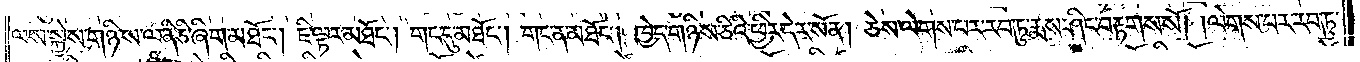ལས་སྐྱེས་གཉིས་ལ་ནི་ཅི་ཞིག་མཐོང༌། ཇི་ལྟར་མཐོང༌། གང་དུ་མཐོང༌། གང་ན་མཐོང༌། ཁྱེད་གཉིས་ཅིའི་ཕྱིར་དེར་སོན། ཅེས་ལེགས་པར་རབ་ཏུ་རྨས་ཤིང་བརྟགས་སོ། །ལེགས་པར་རབ་ཏུ་
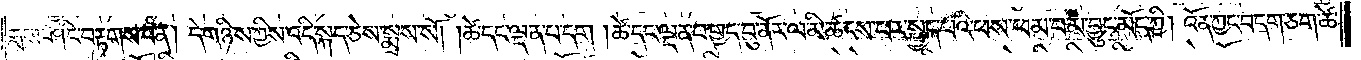རྨས་ཤིང་བརྟགས་པ་ན། དེ་གཉིས་ཀྱིས་འདི་སྐད་ཅེས་སྨྲས་སོ། །ཚེ་དང་ལྡན་པ་དག །ཚེ་དང་ལྡན་པ་གྱད་བུ་ནོར་ལ་མི་ཚངས་པར་སྤྱད་པའི་ཕས་ཕམ་པ་མ་བྱུང་མོད་ཀྱི། འོན་ཀྱང་བདག་ཅག་ཚེ་
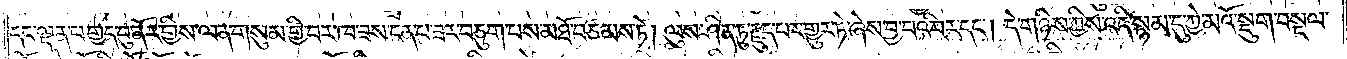དང་ལྡན་པ་གྱད་བུ་ནོར་གྱིས་ལན་གསུམ་གྱི་བར་ཁ་ཟས་ངན་པ་ཟར་བཅུག་པས་མཐོ་བཙམས་ཏེ། ལུས་ཤིན་ཏུ་རྗུད་པར་གྱུར་ཏེ་ཞེས་བྱ་བའི་བར་དང༌། དེ་གཉིས་ཀྱིས་འདི་སྙམ་དུ་ཀྱེ་མའོ་སྡུག་བསྔལ་
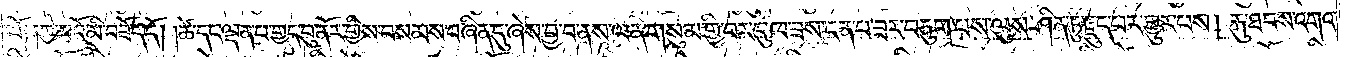ལོ༑ ༑ཀྱེ་མའོ་མི་བཟོད་དོ། །ཚེ་དང་ལྡན་པ་གྱད་བུ་ནོར་གྱིས་བསམས་བཞིན་དུ་ཞེས་བྱ་བ་ནས་ལན་གསུམ་གྱི་བར་དུ་ཁ་ཟས་ངན་པ་ཟར་བཅུག་པས་ལུས་ཤིན་ཏུ་རྗུད་པར་གྱུར་པས། རྐུ་ཐབས་འགའ་
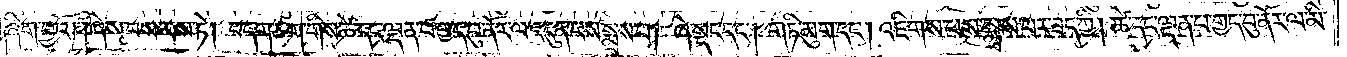ཞིག་བྱའོ། །ཞེས་བསམས་ཏེ། བདག་ཅག་གིས་ཚེ་དང་ལྡན་པ་གྱད་བུ་ནོར་ལ་འདུན་པས་སྨྲས་པ། ཞེ་སྡང་དང༌། གཏི་མུག་དང༌། འཇིགས་པས་སྨྲས་པར་ཟད་ཀྱི། ཚེ་དང་ལྡན་པ་གྱད་བུ་ནོར་ལ་མི་
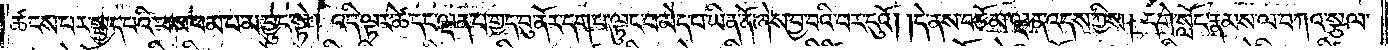ཚངས་པར་སྤྱད་པའི་ཕས་ཕམ་པ་མ་བྱུང་སྟེ། འདི་ལྟར་ཚེ་དང་ལྡན་པ་གྱད་བུ་ནོར་དག་པ་ལྟུང་བ་མེད་པ་ཡིན་ནོ་ཞེས་བྱ་བའི་བར་དུའོ། །དེ་ནས་བཅོམ་ལྡན་འདས་ཀྱིས། དགེ་སློང་རྣམས་ལ་བཀའ་སྩལ་
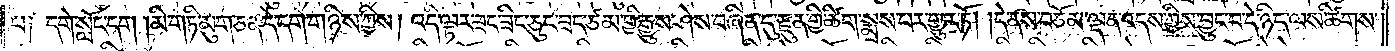པ། དགེ་སློང་དག །མི་གཏི་མུག་ཅན་དེ་དག་གཉིས་ཀྱིས། འདི་ལྟར་ཟང་ཟིང་ཅུང་ཟད་ཙམ་གྱི་རྒྱུས་ཤེས་བཞིན་དུ་རྫུན་གྱི་ཚིག་སྨྲས་པར་གྱུར་ཏོ། །དེ་ནས་བཅོམ་ལྡན་འདས་ཀྱིས་བྱུང་བ་དེ་ཉིད་ལས་ཚིགས་
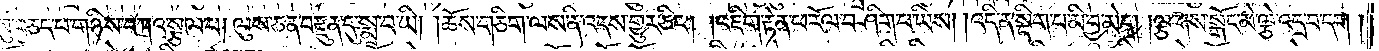སུ་བཅད་པ་གཉིས་བཀའ་སྩལ་པ། ལུས་ཅན་བརྫུན་དུ་སྨྲ་བ་ཡི། །ཆོས་གཅིག་ལས་ནི་འདས་གྱུར་ཅིང༌། །འཇིག་རྟེན་ཕ་རོལ་བཤིག་པ་ཡིས། །འདི་ན་སྡིག་པ་མི་བྱ་མེད། །ལྕགས་སྒོང་མེ་ལྕེ་འདྲ་བ་དག་
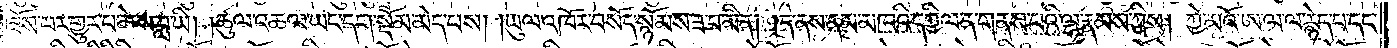ཟོས་པར་གྱུར་པ་ཆེས་བླ་ཡི། །ཚུལ་འཆལ་ཡང་དག་སྡོམ་མེད་པས། །ཡུལ་འཁོར་བསོད་སྙོམས་ཟ་བ་མིན། །དེ་ནས་ནམ་མཁའི་དཀྱིལ་ན་གནས་པའི་ལྷ་རྣམས་ཀྱིས། ཀྱེ་མའོ་ཨ་ལ་ལ་རྙེད་པ་དང་
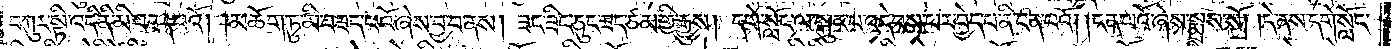བཀུར་སྟི་འདི་ནི་མི་བཟད་པའོ། །མཆོག་ཏུ་མི་བཟད་པའོ་ཞེས་བྱ་བ་ནས། ཟང་ཟིང་ཅུང་ཟད་ཙམ་གྱི་རྒྱུས། དགེ་སློང་ལ་སྐུར་པ་འདེབས་པར་བྱེད་པ་ནི་ངན་པའོ། །ངན་པའོ་ཞེས་སྨྲས་སོ། །དེ་ནས་དགེ་སློང་
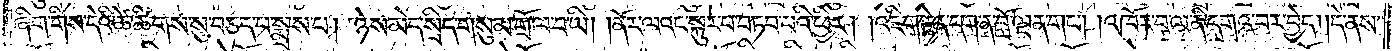ཞིག་གིས་དེའི་ཚེ་ཚིགས་སུ་བཅད་པ་སྨྲས་པ། ཉེས་མེད་སྲིད་གསུམ་གྲོལ་བ་ཡི། །ནོར་ལའང་སྐུར་བ་བཏབ་པའི་ཕྱིར། །འཇིག་རྟེན་དག་ན་བློ་ལྡན་གང༌། །འཁོར་བ་ལ་ནི་དགའ་བར་བྱེད། །དེ་ནས་
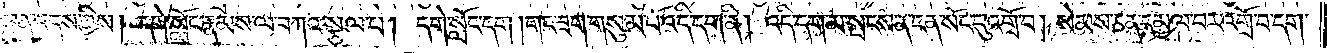བཅོམ་ལྡན་འདས་ཀྱིས། དགེ་སློང་རྣམས་ལ་བཀའ་སྩལ་པ། དགེ་སློང་དག །གང་ཟག་གསུམ་པོ་འདི་དག་ནི། འདི་དག་མ་སྤངས་ན་ངན་སོང་དུ་འགྲོ་བ། སེམས་ཅན་དམྱལ་བར་འགྲོ་བ་དག་
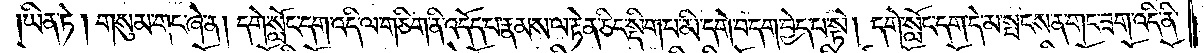ཡིན་ཏེ། གསུམ་གང་ཞེ་ན། དགེ་སློང་དག་འདི་ལ་གཅིག་ནི་འདོད་པ་རྣམས་ལ་རྟེན་ཅིང་སྡིག་པ་མི་དགེ་བ་དག་བྱེད་པ་སྟེ། དགེ་སློང་དག་དེ་མ་སྤངས་ན་གང་ཟག་འདི་ནི་
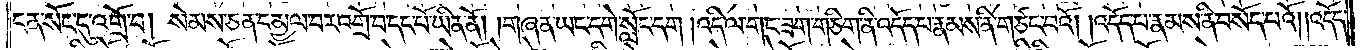ངན་སོང་དུ་འགྲོ་བ། སེམས་ཅན་དམྱལ་བར་འགྲོ་བ་དང་པོ་ཡིན་ནོ། །གཞན་ཡང་དགེ་སློང་དག། འདི་ལ་གང་ཟག་གཅིག་ནི་འདོད་པ་རྣམས་ནི་གཙང་བའོ། །འདོད་པ་རྣམས་ནི་བསོད་པའོ། །འདོད་
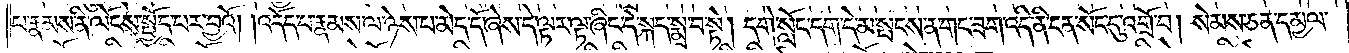པ་རྣམས་ནི་ལོངས་སྤྱོད་པར་བྱའོ། །འདོད་པ་རྣམས་ལ་ཉེས་པ་མེད་དོ་ཞེས་དེ་ལྟར་ལྟ་ཞིང་དེ་སྐད་སྨྲ་བ་སྟེ། དགེ་སློང་དག་དེ་མ་སྤངས་ན་གང་ཟག་འདི་ནི་ངན་སོང་དུ་འགྲོ་བ། སེམས་ཅན་དམྱལ་
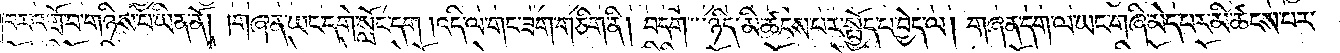བར་འགྲོ་བ་གཉིས་པ་ཡིན་ནོ། །གཞན་ཡང་དགེ་སློང་དག །འདི་ལ་གང་ཟག་གཅིག་ནི། བདག་ཉིད་མི་ཚངས་པར་སྤྱོད་པ་བྱེད་ལ། གཞན་དག་ལ་ཡང་གཞི་མེད་པར་མི་ཚངས་པར་
